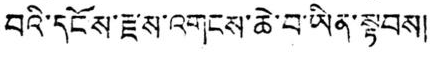བའི་དངོས་རྫས་འགངས་ཆེ་བ་ཡིན་སྟབས།
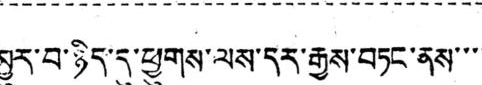མྱུར་བ་ཉིད་དུ་ཕྱུགས་ལས་དར་རྒྱས་བཏང་ནས་་་་
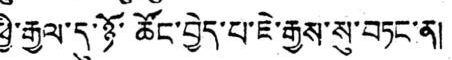ཕྱི་རྒྱལ་དུ་ཉོ་ཚོང་བྱེད་པ་ཇེ་རྒྱས་སུ་བཏང་ན།
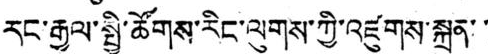རང་རྒྱལ་སྤྱི་ཚོགས་རིང་ལུགས་ཀྱི་འཛུགས་སྐྲུན་་་
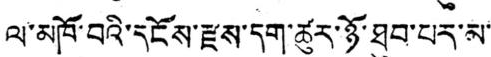ལ་མཁོ་བའི་དངོས་རྫས་དག་ཚུར་ཉོ་ཐུབ་པར་མ་་
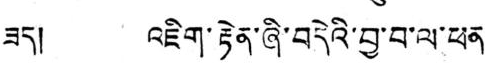ཟད། འཇིག་རྟེན་ཞི་བདེའི་བྱ་བ་ལ་ཕན་
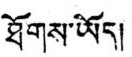ཐོགས་ཡོད།
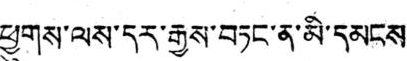ཕྱུགས་ལས་དར་རྒྱས་བཏང་ན་མི་དམངས་
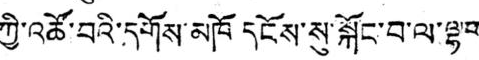ཀྱི་འཚོ་བའི་དགོས་མཁོ དངོས་སུ་སྐོང་བ་ལ་ལྷག་
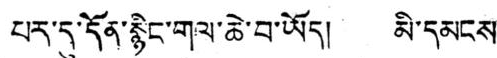པར་དུ་དོན་སྙིང་གལ་ཆེ་བ་ཡོད། མི་དམངས་
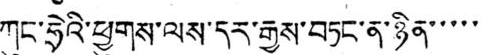ཀུང་ཧྲེའི་ཕྱུགས་ལས་དར་རྒྱས་བཏང་ན་ཉིན་་་་་་
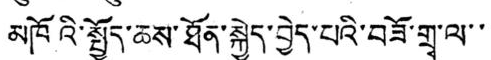མཁོའི་སྤྱོད་ཆས་ཐོན་སྐྱེད་བྱེད་པའི་བཟོ་གྲྭ་ལ་་་
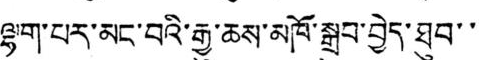ལྷག་པར་མང་བའི་རྒྱུ་ཆས་མཁོ་སྒྲུབ་བྱེད་ཐུབ་་་
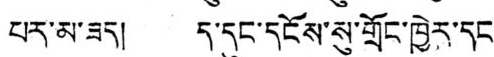པར་མ་ཟད། ད་དུང་དངོས་སུ་གྲོང་ཁྱེར་དང་
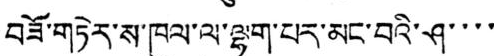བཟོ་གཏེར་ས་ཁུལ་ལ་ལྷག་པར་མང་བའི་ཤ་་་་
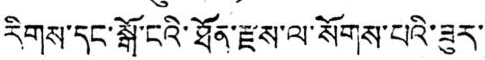རིགས་དང་སྒོ་ངའི་ཐོན་རྫས་ལ་སོགས་པའི་ཟུར་་
